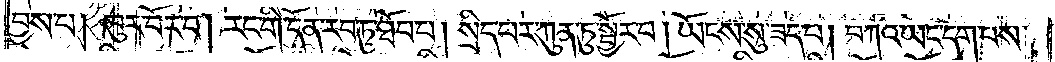བྱས་པ། ཁུར་བོར་བ། རང་གི་དོན་རབ་ཏུ་ཐོབ་པ། སྲིད་པར་ཀུན་ཏུ་སྦྱོར་བ། ཡོངས་སུ་ཟད་པ། བཀའ་ཡང་དག་པས་
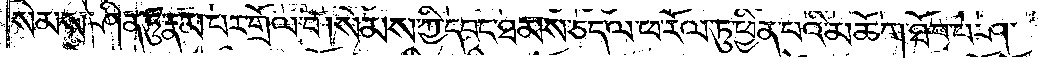སེམས་ཤིན་ཏུ་རྣམ་པར་གྲོལ་བ། སེམས་ཀྱི་དབང་ཐམས་ཅད་ལ་ཕ་རོལ་ཏུ་ཕྱིན་པའི་མཆོག་ཐོབ་པ་ཤ་
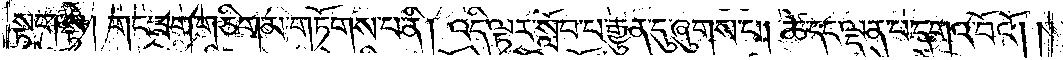སྟག་སྟེ། གང་ཟག་གཅིག་མ་གཏོགས་པ་ནི། འདི་ལྟར་སློབ་པ་རྒྱུན་དུ་ཞུགས་པ། ཚེ་དང་ལྡན་པ་དགའ་བོའོ། །
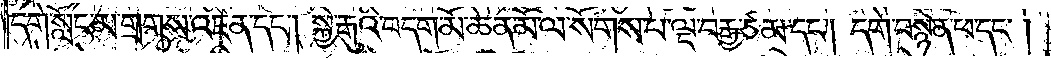དགེ་སློང་མ་གྲགས་འཛིན་དང༌། སྐྱེ་རྒུའི་བདག་མོ་ཆེན་མོ་ལ་སོགས་པ་ལྔ་བརྒྱ་ཙམ་དང༌། དགེ་བསྙེན་ཕ་དང༌།
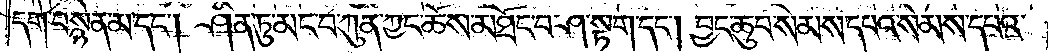དགེ་བསྙེན་མ་དང༌། ཤིན་ཏུ་མང་བ་ཀུན་ཀྱང་ཆོས་མཐོང་བ་ཤ་སྟག་དང༌། བྱང་ཆུབ་སེམས་དཔའ་སེམས་དཔའ་
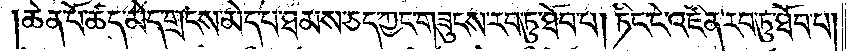ཆེན་པོ་ཚད་མེད་གྲངས་མེད་པ་ཐམས་ཅད་ཀྱང་གཟུངས་རབ་ཏུ་ཐོབ་པ། ཏིང་ངེ་འཛིན་རབ་ཏུ་ཐོབ་པ།
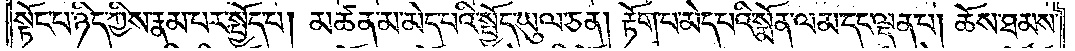སྟོང་པ་ཉིད་ཀྱིས་རྣམ་པར་སྤྱོད་པ། མཚན་མ་མེད་པའི་སྤྱོད་ཡུལ་ཅན། རྟོག་པ་མེད་པའི་སྨོན་ལམ་དང་ལྡན་པ། ཆོས་ཐམས་
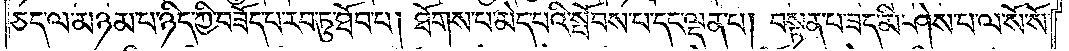ཅད་ལ་མཉམ་པ་ཉིད་ཀྱི་བཟོད་པ་རབ་ཏུ་ཐོབ་པ། ཐོགས་པ་མེད་པའི་སྤོབས་པ་དང་ལྡན་པ། བསྟན་པ་ཟད་མི་ཤེས་པ་ལ་སོ་སོ་
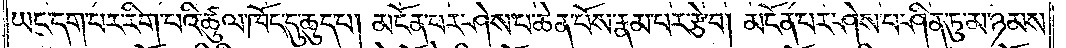ཡང་དག་པར་རིག་པའི་ཚུལ་ཁོང་དུ་ཆུད་པ། མངོན་པར་ཤེས་པ་ཆེན་པོས་རྣམ་པར་རྩེ་བ། མངོན་པར་ཤེས་པ་ཤིན་ཏུ་མ་ཉམས་
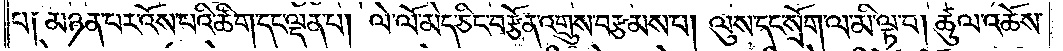པ༑ མཉན་པར་འོས་པའི་ཚིག་དང་ལྡན་པ། ལེ་ལོ་མེད་ཅིང་བརྩོན་འགྲུས་བརྩམས་པ། ལུས་དང་སྲོག་ལ་མི་ལྟ་བ། ཚུལ་འཆོས་
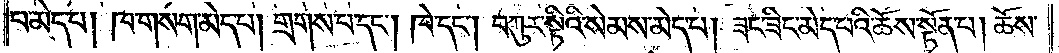པ་མེད་པ། ཁ་གསག་མེད་པ། གྲགས་པ་དང༌། ཁེ་དང༌། བཀུར་སྟིའི་སེམས་མེད་པ། ཟང་ཟིང་མེད་པའི་ཆོས་སྟོན་པ། ཆོས་
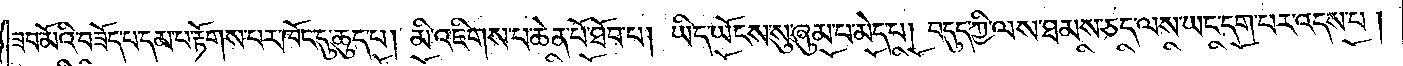ཟབ་མོའི་བཟོད་པ་དམ་པ་རྟོགས་པར་ཁོང་དུ་ཆུད་པ། མི་འཇིགས་པ་ཆེན་པོ་ཐོབ་པ། ཡིད་ཡོངས་སུ་ཞུམ་པ་མེད་པ། བདུད་ཀྱི་ལས་ཐམས་ཅད་ལས་ཡང་དག་པར་འདས་པ་།
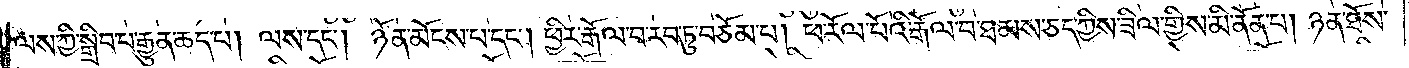ལས་ཀྱི་སྒྲིབ་པ་རྒྱུན་ཆད་པ། ལས་དང༌། ཉོན་མོངས་པ་དང༌། ཕྱིར་རྒོལ་བ་རབ་ཏུ་བཅོམ་པ། ཕ་རོལ་པོའི་རྒོལ་བ་ཐམས་ཅད་ཀྱིས་ཟིལ་གྱིས་མི་ནོན་པ། ཉན་ཐོས་
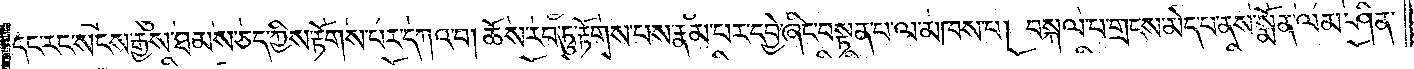དང་རང་སངས་རྒྱས་ཐམས་ཅད་ཀྱིས་རྟོགས་པར་དཀའ་བ། ཆོས་རབ་ཏུ་རྟོགས་པས་རྣམ་པར་དབྱེ་ཞིང་བསྟན་པ་ལ་མཁས་པ། བསྐལ་པ་གྲངས་མེད་པ་ནས་སྨོན་ལམ་ཤིན་
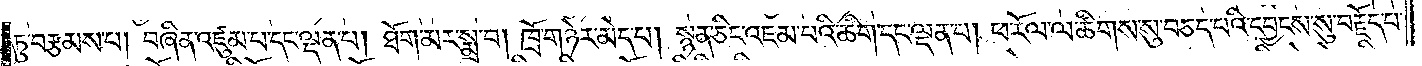ཏུ་བརྩམས་པ། བཞིན་འཛུམ་པ་དང་ལྡན་པ། ཐོག་མར་སྨྲ་བ། ཁྲོ་གཉེར་མེད་པ། སྙན་ཅིང་འཇམ་པའི་ཚིག་དང་ལྡན་པ། ཕ་རོལ་ལ་ཚིགས་སུ་བཅད་པའི་དབྱངས་སུ་བརྗོད་པ་
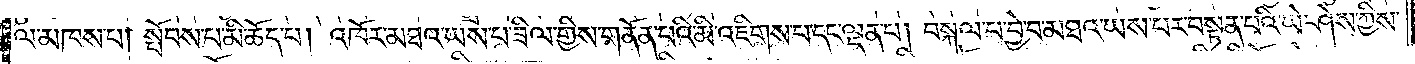ལ་མཁས་པ། སྤོབས་པ་མི་ཆོད་པ། འཁོར་མཐའ་ཡས་པ་ཟིལ་གྱིས་གནོན་པའི་མི་འཇིགས་པ་དང་ལྡན་པ། བསྐལ་པ་བྱེ་བ་མཐའ་ཡས་པར་བསྟན་པའི་ཡེ་ཤེས་ཀྱིས་
